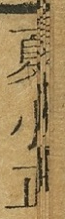夏小正
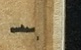一
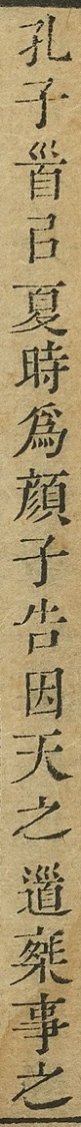孔子首以夏時為顏子告因天之道乘事之
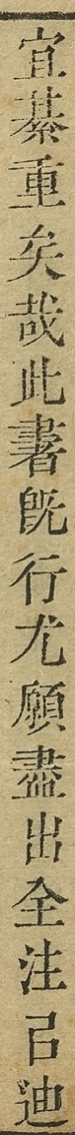宜綦重矣哉此書既行尤願盡出全注以迪
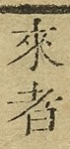來者
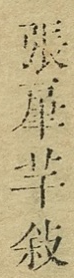張肁芉敍
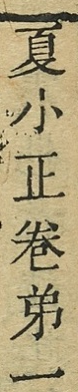夏小正卷弟一
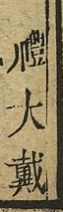禮大戴
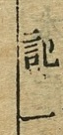記一
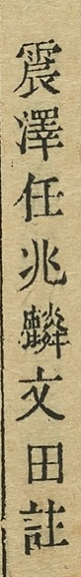震澤任兆麟文田註
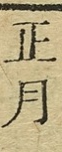正月
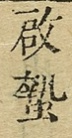啟蟄
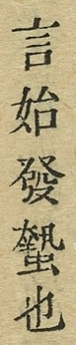言始發蟄也
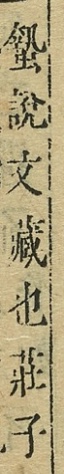蟄說文藏也莊子
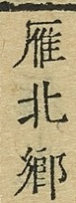雁北鄉
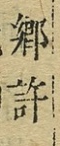鄉許
